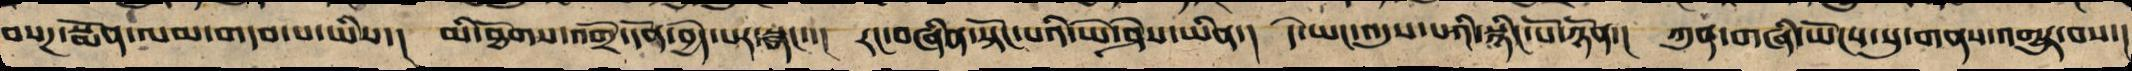བསཌ་སྨོན་ལམ་གདབ་པ་ཡིས་། མི་ཐོགས་འགྲོ་དོན་བྱེད་པར་སྣང་་། རང་བཞིན་སྟོང་པའི་ཡེ་ཤེས་ཡིན་། དེ་ཡང་འདུས་པའི་སྙིང་པོ་ཉོན་། ཀུན་གཞི་ཡོངས་སུ་གནས་འགྱུར་བས་།
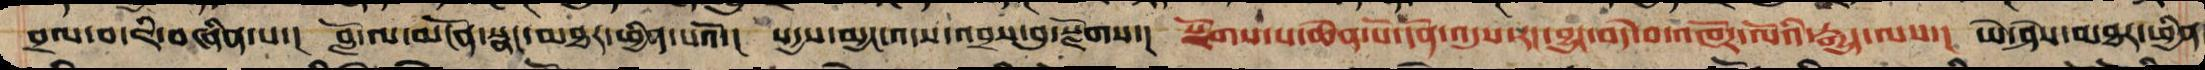བྲལ་བ་ཇི་བཞིན་པ་། བློ་ལ་མངོན་སྣང་མཐར་ཕྱིན་པའོ་། སདྱས་མྱང་འདས་འབྲས་བུ་སྫོགས་། སྫོགས་པ་ཆེན་པོ་དོན་འདུས་རང་བྱུང་བདེ་བའི་འཁོར་ལོའི་རྒྱུད་ལས་། ཡེ་ཤེས་མཐར་ཕྱིན་
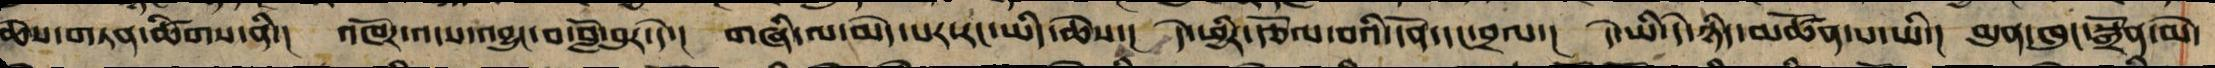ཆེས་གཏན་ཚིགས་ནི་། འཁོར་འདས་འབྱུང་བ་གློ་བུར་ཏེ་། གཞི་ལ་མེད་པར་རང་ཡིད་ཆེས་། དེ་ཕྱིར་རྩོལ་བའི་ནད་དང་བྲལ་། དེ་ཡིས་དེ་ཉིད་མཚོན་པ་ནི་། མུན་ཁུང་སྒྲོན་མེ་
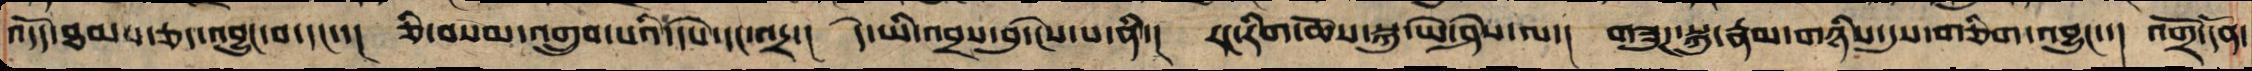འདོད་ཐམས་ཅད་འབྱུང་བ་དང་་། ཅི་བསམ་འགྲུབ་པའི་དཔེ་དང་འདྲ་། དེ་ཡི་འབྲས་བུ་ངེས་པ་ནི་། རང་རིག་ཆོས་སྐུ་ཡེ་ཤེས་ལ་། གཟུཌ་སྐུ་རྣམ་གཉིས་དུས་གཅིག་འབྱུང་་། འགྲོ་དོན་
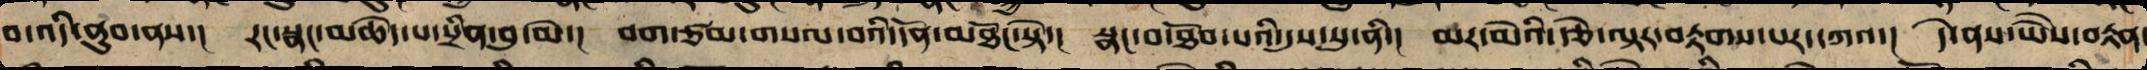བ་འདི་ནུབ་ནས་། རང་སྣང་མཆེད་པ་སྲིན་བུ་མེ་། བག་ཙམ་གསལ་བའི་དོན་མཐོང་སྟེ་། སྣང་བ་ཐོབ་པའི་དུས་སུ་ནི་། མར་མེའི་རྩེ་ལྟར་བརྟག་པར་དཀའ་། དེ་ནས་ཡཻས་བརྟན་
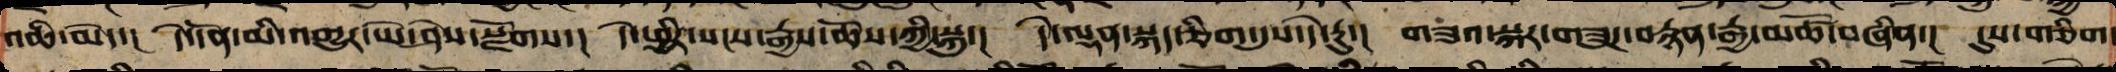འཆི་མེད་། དེ་དོན་མི་འགྱུར་ཡོན་ཏན་སྫོགས་། དེ་ཕྱིར་སངས་རྒྱས་ཆོས་ཀྱི་སྐུ་། དེ་ལྡན་སྐད་ཅིག་དུས་དེ་རུ་། གཟའ་སྐར་གཟུཌ་བརྙན་རྒྱ་མཚོ་བཞིན་། དུས་གཅིག་
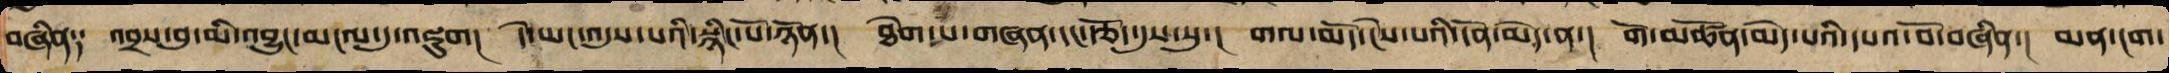བཞིན༑ འབྲས་བུ་མི་འབྱུང་མངལ་དུ་འཇུག། དེ་ཡང་འདུས་པའི་སྙིང་པོ་ཉོན་། ཐེག་པ་གཞན་དང་རྩོད་དུས་སུ་། གལ་མདོ་ངེས་པའི་དོན་མེད་ན་། གོ་མཚོན་མེད་པའི་དཔའ་བོ་བཞིན་། མན་ངག་
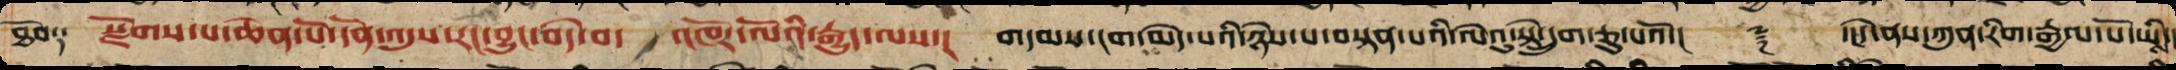ཐོབ༑ སྫོགས་པ་ཆེན་པོ་དོན་འདུས་རང་བྱུང་བདེ་བའི་འཁོར་ལོའི་རྒྱུད་ལས་། གདམས་ངག་མེད་པའི་ཉེས་པ་བསྟན་པའི་ལེའུ་སྟེ་དྲུག་ཅུ་པའོ་།། ༈ ་།།དེ་ནས་ཀུན་རིག་རྒྱལ་པོ་ཡིས་
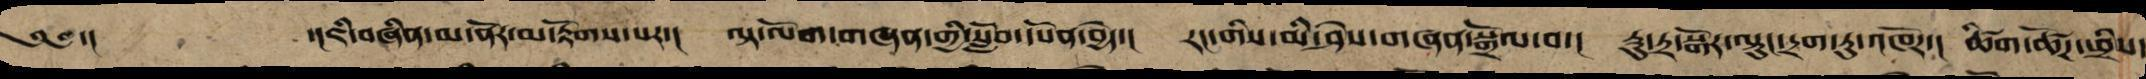༄༅་། ་།ཇི་བཞིན་མ་ནོར་མ་རྟོགས་པར་། ལྟ་ལོག་གཞན་གྱི་སློབ་དཔོན་བྱེད་། རང་གིས་མི་ཤེས་གཞན་སྒྲོལ་བ་། རུ་ཏྲ་སྒོར་ལྟུང་དྲག་ཏུ་འཁོར་། ཚིག་ཚོཌ་ཕྲིས་
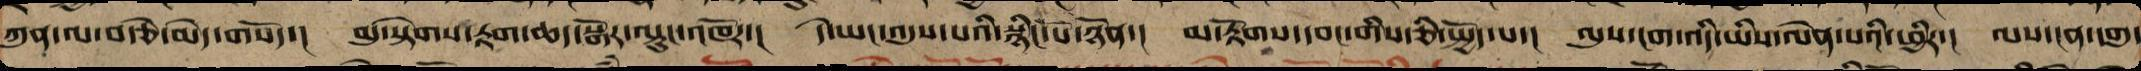ཀུན་ལ་བརྩེ་མེད་གསོད་། མུ་སྟེགས་རྟག་ཆད་སྒོར་ལྟུང་འཁོར་། དེ་ཡང་འདུས་པའི་སྙིང་པོ་ཉོན་། མ་རྟོགས་དབང་གིས་ཅི་སྤྱོད་པ་། ལུས་ངག་འདི་ཡིས་ལན་པའི་ཕྱིར་། ལས་ངན་དགུ་
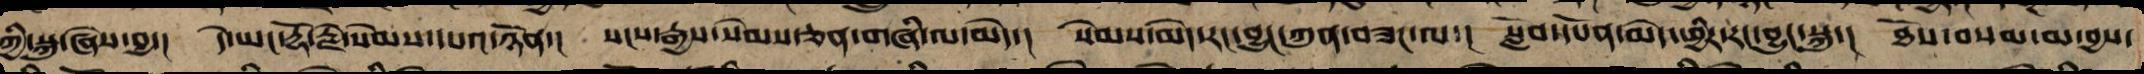ཀྱི་སྐུ་ཞེས་བྱ་།  དེ་ཡང་རྡོ་རྗེ་སེམས་དཔའ་ཉོན་།  སངས་རྒྱས་སེམས་ཅན་གཞི་ལ་མེད་།  སེམས་མེད་རང་བྱུང་ཀུན་བཟང་ལ།  སློབ་དཔོན་མེད་ཕྱིར་རང་བྱུང་སྐུ་།  ཐོས་བསམ་མ་བྱས་
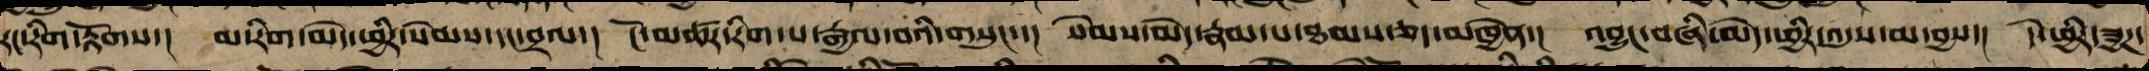རང་རིག་རྟོགས་།  མ་རིག་མེད་ཕྱིར་སེམས་དང་བྲལ་། ངོ་མཚར་རིག་པ་རྒྱལ་བའི་གསུང་་།  སེམས་མེད་རྣམ་པ་ཐམས་ཅད་མཁྱེན་།  འབྱུང་བཞི་མེད་ཕྱིར་འདུས་མ་བྱས་།  དེ་ཕྱིར་ཟྱཌ་
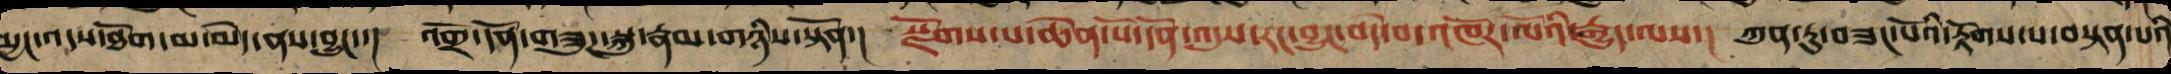མྱང་འདས་ཐོག་མ་མེད་ནས་བྱུང་་།  འགྲོ་དོན་གཟུཌ་སྐུ་རྣམ་གཉིས་སྟོན་། སྫོགས་པ་ཆེན་པོ་དོན་འདུས་རང་བྱུང་བདེ་བ་འཁོར་ལོའི་རྒྱུད་ལས་། ཀུན་ཏུ་བཟང་པོའི་རྟོགས་པ་བསྟན་པའི
